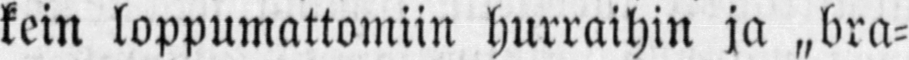kein loppumattomiin hurraihin ja „bra-
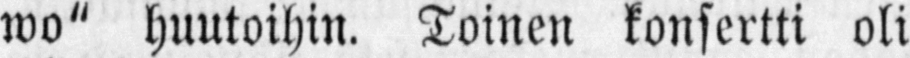wo" huutoihin. Toinen konsertti oli
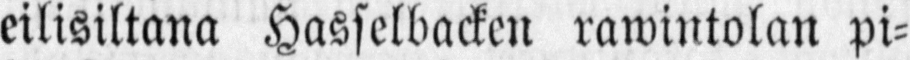eilisiltana Hasselbacken rawintolan pi-
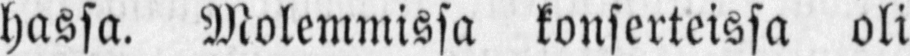hassa. Molemmissa konserteissa oli
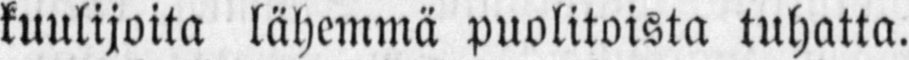kuulijoita lähemmä puolitoista tuhatta.
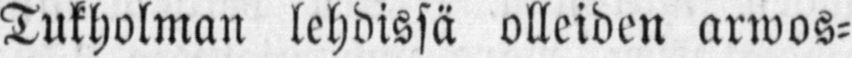Tukholman lehdissä olleiden arwos-
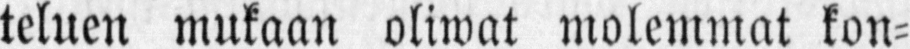teluen mukaan oliwat molemmat kon-
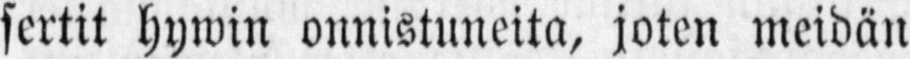sertit hywin onnistuneita, joten meidän
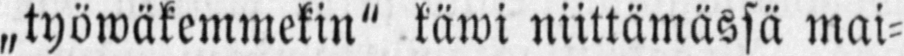„työwäkemmekin" käwi niittämässä mai-
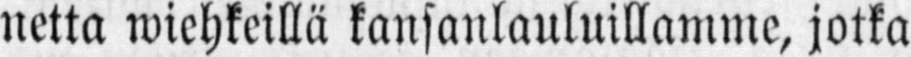netta wiehkeillä kansanlauluillamme, jotka
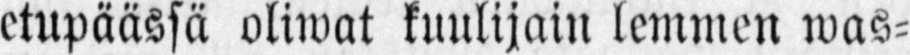etupäässä oliwat kuulijain lemmen was-
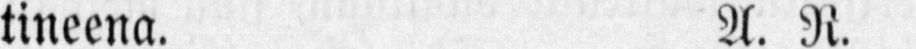tineena. A. N.
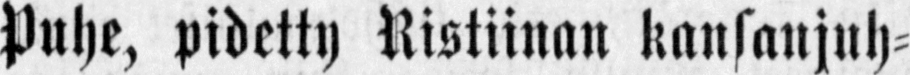puhe, pidetty Ristiinan kansanjuh-
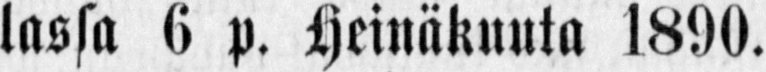lassa 6 p. Heinäkuuta 1890.
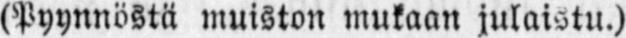(Pyynnöstä muiston mukaan julaistu.)
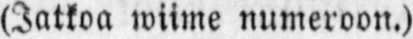(Jatkoa wiime numeroon.)
